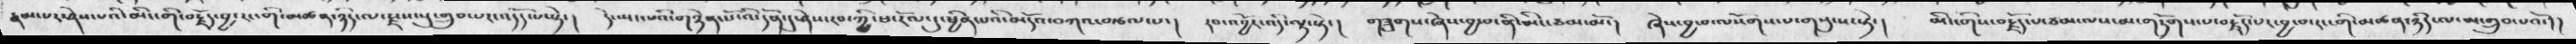རྣམ་པར་ཤེས་པའི་མིང་གི་བརྗོད་བྱ་རང་གི་མཚན་ཉིད་ལ་རྫས་སུ་གྲུབ་པར་འདོད་པ་སྟེ་།   དེ་སྤང་པའི་གཉེན་པོ་འི་དོན་དུ་ཤེས་རབ་ཀྱི་ཕ་རོལ་དུ་ཕྱིན་པའི་མདོའ་བཀའ་བརྩལ་པ་།  རབ་འབྱོར་འདི་ལྟ་སྟེ་།  གཟུགས་ཞེས་བྱ་བ་ནི་མིང་ཙམ་མོ་།   ཞེས་བྱ་བ་ལསོགས་པ་གསུངས་སྟེ་།   མིང་གིས་བརྗོད་པ་ཙམ་ལས་མ་གཏོགས་པ་བརྗོད་པར་བྱ་བ་རང་གི་མཚན་ཉིད་ལ་མ་གྲུབ་པའོ་།།
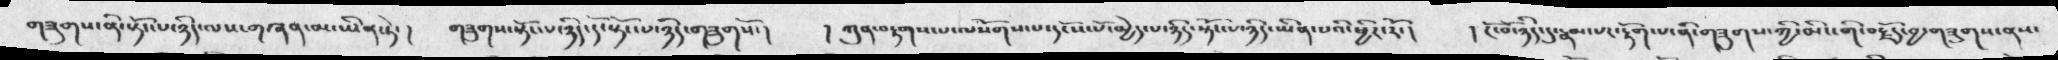གཟུགས་ནི་སྟོང་པ་ཉིད་ལས་གཞན་མ་ཡིན་ཏེ་།  གཟུགས་སྟོང་པ་ཉིད་དོ་སྟོང་པ་ཉིད་གཟུགས་སོ་།  ། ཀུན་བརྟགས་པ་ལསོགས་པ་དངོས་པོ་མྱེད་པ་ཉིད་སྟོང་པ་ཉིད་ཡིན་པའི་ཕྱིར་རོ་།   ། ངོ་བོ་ཉིད་དུ་རྣམ་པར་རྟོག་པ་ནི་གཟུགས་ཀྱི་མིང་གི་བརྗོད་བྱ་གཟུགས་ནས་
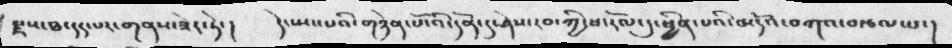རྗས་ཐ་དད་པར་གནས་ཟེར་ཏེ་།    དེ་སྤངས་པའི་གཉེན་པོ་འི་དོན་དུ་ཤེས་རབ་ཀྱི་ཕ་རོལ་དུ་ཕྱིན་པའི་མདོའ་བཀའ་བརྩལ་པ་།
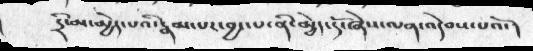དྲི་མ་མྱེད་པའི་རྣམ་པར་བྱང་པ་ནི་མྱེད་དོ་ཞེས་ལན་འདེབས་པའོ་།
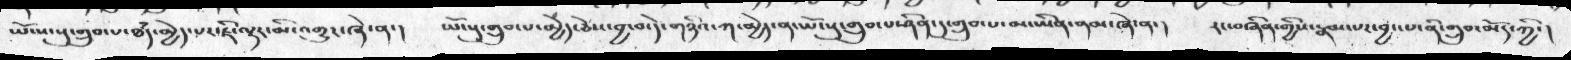ཡོངས་སུ་གྲུབ་པ་ཐཾད་མྱེད་པར་ཇི་ལྟར་མི་འགྱུར་ཞེ་ན་།   ཡོངསུ་གྲུབ་པ་མྱེ་ཅེས་བྱ་བ་དེ་གཉིས་ཀ་མྱེད་ན་ཡོངསུ་གྲུབ་པ་ཤིན་དུ་གྲུབ་པ་མ་ཡིན་ནམ་ཞེ་ན་།   རང་བཞིན་གྱིས་རྣམ་པར་བྱང་པ་ནི་གྲུབ་མོད་ཀྱི་།
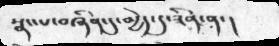སྣང་པ་བཞིན་དུ་མྱེད་དུ་ཟིན་ན་།
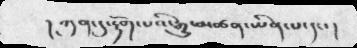། ཀུན་དུ་རྟོགས་པའི་རྒྱུ་མཚན་ཡིན་པ་དང་།
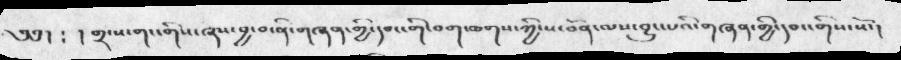༄༅། ༴  ། གྲངས་གང་གིས་ཞས་བྱ་བ་ནི་གཞན་གྱི་དབང་གི་བག་ཆགས་ཀྱི་ས་བོན་ལས་བྱུང་པའི་གཞན་གྱི་དབང་གིས་སོ་།
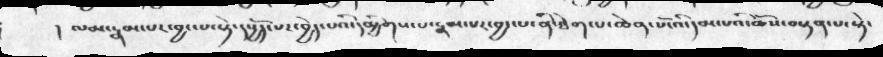། ལམ་རྣམ་པར་བྱང་པ་སྟེ་དཔྱོད་པར་བྱེད་པའི་དམྱིགས་པ་རྣམ་པར་བྱང་པ་ནི་ཐེག་པ་ཆེན་པོ་འི་དམ་པའི་ཆོས་བསྟན་པ་སྟེ་
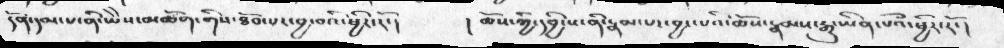དོན་དམ་པ་ནི་ཡེེས་མཆོག་གིས་ཐོབ་པར་བྱ་བའི་ཕྱིར་རོ་།    ། ཆོས་ཀྱི་དབྱིངས་ནི་རྣམ་པར་བྱང་པའི་ཆོས་རྣམས་རྒྱུ་ཡིན་པའྀ་ཕྱིར་རོ་།
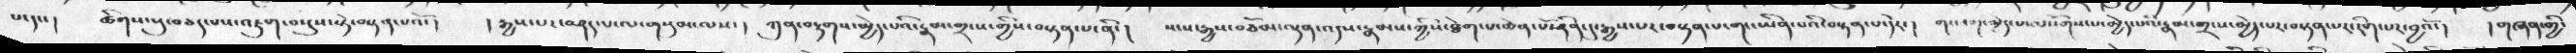པ་དང་ །   ཚིགས་སུ་བཅད་པས་འཇུག་བསྡུས་སྟེ་བསྟན་པའོ་།    ། རྒྱས་པར་བཤད་པ་ལ་གསུམ་ལས་ །   ཀུན་བརྟགས་མྱེད་པའི་རྣམ་གྲངས་གྱིས་བསྟན་པ་ནི་།     སངས་རྒྱས་བཅོམ་ལྡན་འདས་རྣམས་ཀྱིས་ཐེག་པ་ཆེན་པོ་ཤིན་དུ་རྒྱས་པར་བསྟན་པ་གང་ཡིན་པའི་བསྟན་པ་དེར་།   གང་ཟག་མྱེད་པ་ལསོགས་པ་མྱེད་པའི་རྣམ་གྲངས་མྱེད་པར་བསྟན་པར་རིག་པར་བྱའོ་།   ། གཞན་གྱི་
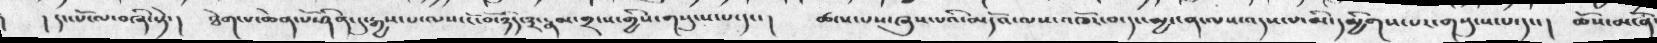།   དང་པོ་ལ་བཞི་སྟེ་།  ཐེག་པ་ཆེན་པོ་ཤིན་དུ་རྒྱས་པ་ལས་ངོ་བོ་ཉིད་༣་རྣམ་གྲངས་གྱིས་གསུངས་པ་དང་།   ཚངས་པས་ཞུས་པའི་མདོའ་ལས་འཁོར་བ་དང་མྱ་ངན་ལས་འདས་པ་མི་དམྱིགས་པར་གསུངས་པ་དང་།  ཆོས་མངོན་
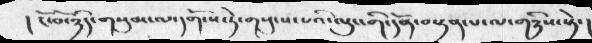། ངོ་བོ་ཉིད་གསུམ་ལ་དགོངས་ཏེ་གསུངས་པའི་ལུང་གི་དོན་བསྟན་པ་ལ་གཉིས་སྟེ་།
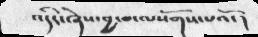འདིར་ཞེས་བྱ་བ་ལསོགས་པའོ་།
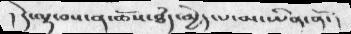།  དེ་ལྟ་བས་ན་ཆོས་ཐྃད་མྱེད་པ་མ་ཡིན་ནོ་།
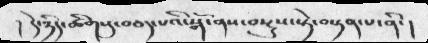། དེ་ཉིད་ཚིགསུ་བཅད་པའི་སྒོ་ནས་བསྡུས་སྟེ་བསྟན་པ་ནི་།
